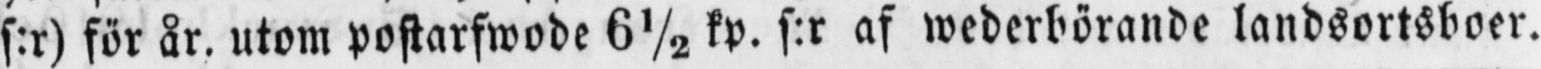s:r) för år, utom postarfwode 6½ kp. s:r af wederbörande landsortsboer.
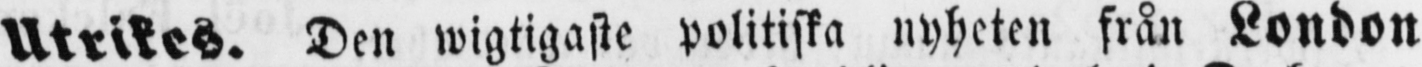Utrikes. Den wigtigaste politiska nyheten från London
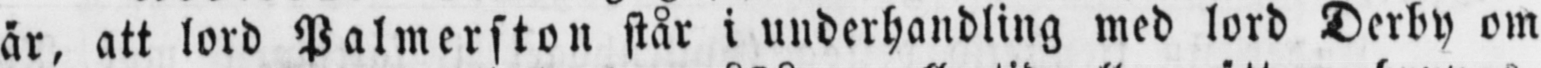är, att lord Palmerston står i underhandling med lord Derby om
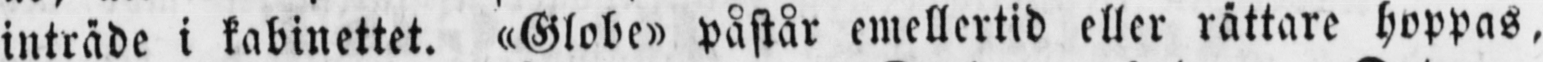inträde i kabinettet. «Globe» påstår emellertid eller rättare hoppas,
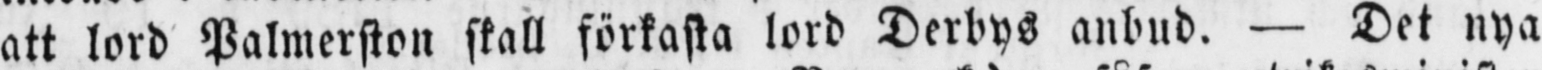att lord Palmerston skall förkasta lord Derbys anbud. — Det nya
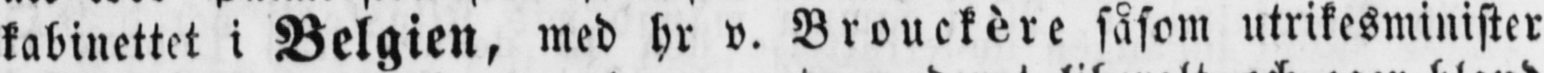kabinettet i Belgien, med hr v. Brouckère såsom utrikesminister
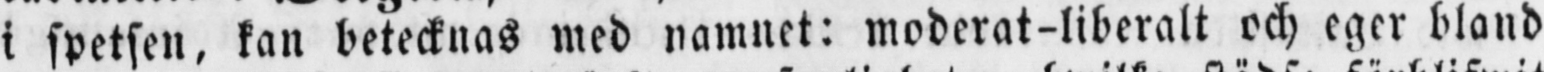i spetsen, kan betecknas med namnet: moderat-liberalt och eger bland
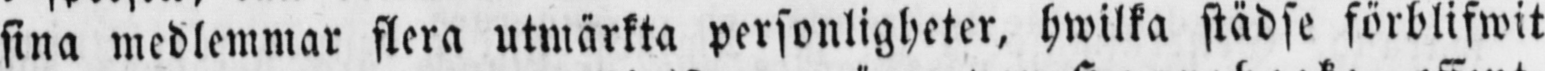sina medlemmar flera utmärkta personligheter, hwilka städse förblifwit
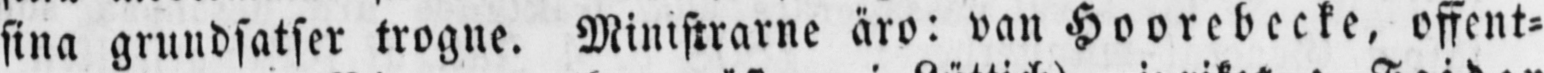sina grundsatser trogne. Ministrarne äro: van Hoorebecke. offent-
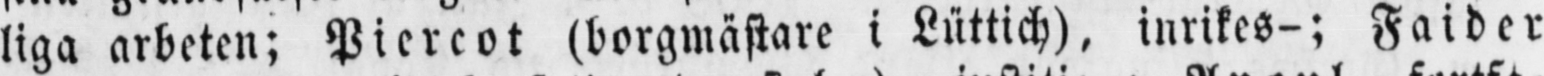liga arbeten; Piercot (borgmästare i Lüttich), inrikes-; Faider
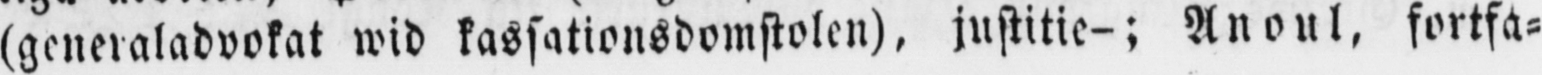(generaladvokat wid kassationsdomstolen), justitie-; Anoul, fortfa-
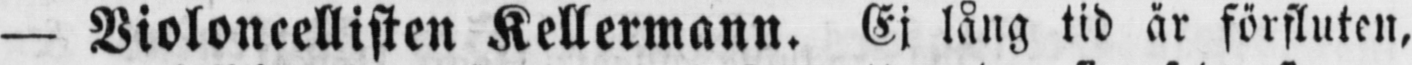— Violoncellisten Kellermann. Ej lång tid är förfluten,
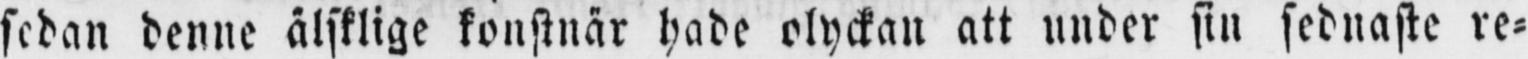sedan denne älsklige konstnär hade olyckan att under sin sednaste re-
